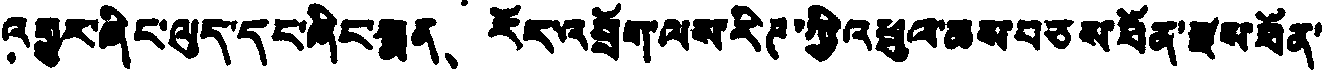འགྱུར་ཞིང་ལུད་དང་ཞིང་སྨན、 རོང་འབྲོག་ལས་རིཊ་ཀྱི་འཕྲུལ་ཆས་བཅས་ཐོན་རྫས་ཐོན་
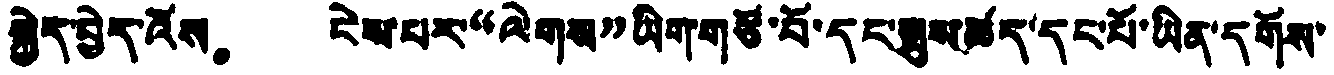སྐྱེད་བྱེད་འོས。 ངེས་པར“ལེགས”ཡིག་གཙོ་བོ་དང་སྤུས་ཚད་དང་པོ་ཡིན་དགོས་
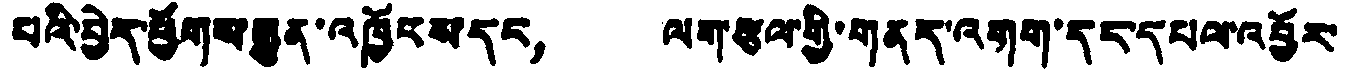པའི་བྱེད་ཕྱོགས་སྨུན་འཁྱོངས་དང， ལག་རྩལ་གྱི་གནད་འགག་དང་དཔལ་འབྱོར་
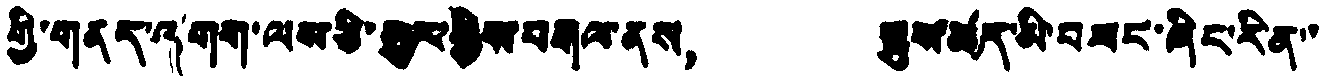གྱི་གནད་འགག་ལས་ཅྱི་མྱུར་གྱིས་བརྒལ་ནས， སྤུས་ཚད་མི་བཟང་ཞིང་རིན་་
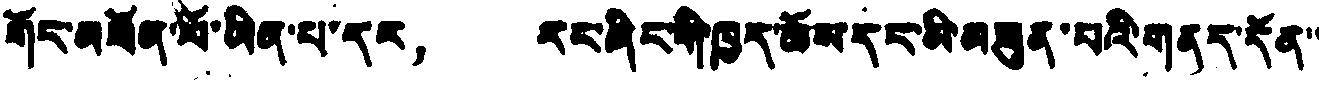གོང་མཐོན་ལོ་ཡིན་པ་དང， རང་ཞིང་གི་ཁྱད་ཆོས་དང་མི་མཐུན་པའི་གནད་དོན་་
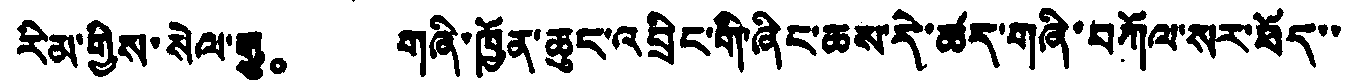རིམ་གྱིས་སེལ་རྒྱུ。 གཞི་ཁྱོན་ཆུང་འབྲིང་གི་ཞིང་ཆས་རེ་ཚད་གཞི་བཀོལ་སར་ཐོད་་
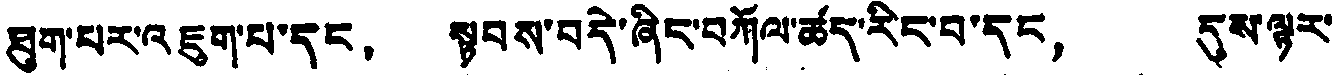ཐུག་པར་འཇུག་པ་དང， སྟབས་བདེ་ཞིང་བཀོལ་ཚད་རིང་བ་དང， དུས་ལྟར་
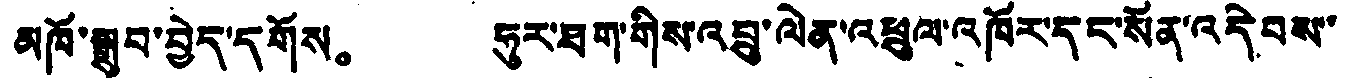མཁོ་སྒྲུབ་བྱེད་དགོས。 ཧུར་ཐག་གིས་འབྲུ་ལེན་འཕྲུལ་འཁོར་དང་སོན་འདེབས་
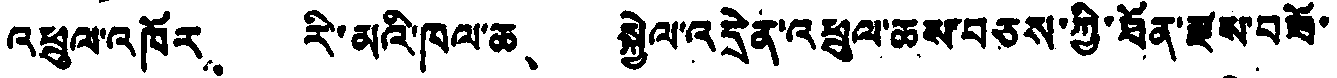འཕྲུལ་འཁོར， རི་མའི་ཁལ་ཆ、 སྐྱེལ་འདྲེན་འཕྲུལ་ཆས་བཅས་ཀྱི་ཐོན་རྫས་བཟོ་
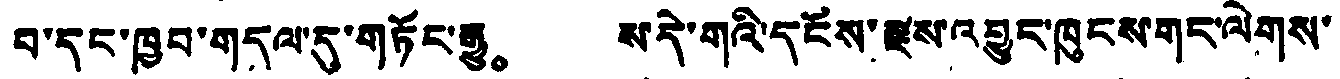བ་དང་ཁྱབ་གདལ་དུ་གཏོང་རྒྱུ。 ས་དེ་གའི་དངོས་རྫས་འབྱུང་ཁུངས་གང་ལེགས་
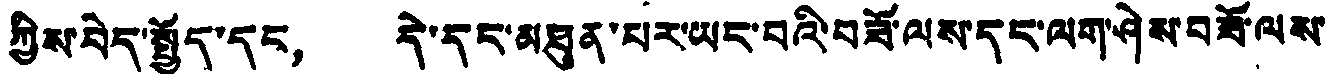ཀྱིས་བེད་སྤྱོད་དང， དེ་དང་མཐུན་པར་ཡང་བའི་བཟོ་ལས་དང་ལག་ཤེས་བཟོ་ལས་
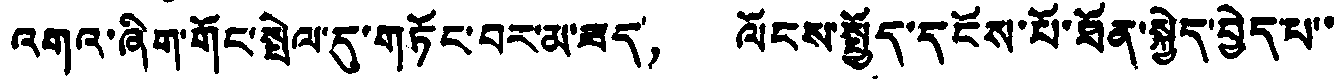འགའ་ཞིག་གོང་སྤེལ་དུ་གཏོང་བར་མ་ཟད， ལོངས་སྤྱོད་དངོས་པོ་ཐོན་སྐྱེད་བྱེད་པ་་
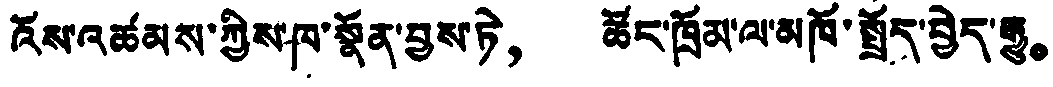འོས་འཚམས་ཀྱིས་ཁ་སྣོན་བྱས་ཏེ， ཚོང་ཁྲོམ་ལ་མཁོ་སྤྲོད་བྱེད་རྒྱུ。
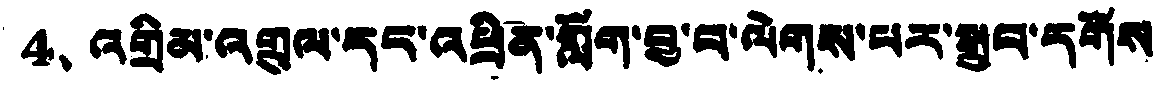4、 འགྲིམ་འགྲུལ་དང་འཕྲིན་གློག་བྱ་བ་ལེགས་པར་སྒྲུབ་དགོས
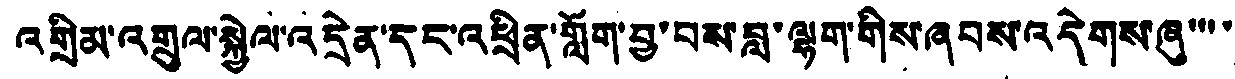འགྲིམ་འགྲུལ་སྐྱེལ་འདྲེན་དང་འཕྲིན་གློག་བྱ་བས་བླ་ལྷག་གིས་ཞབས་འདེགས་ཞུ་་་་་
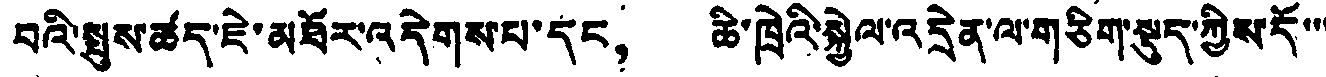བའི་སྤུས་ཚད་ཇེ་མཐོར་འདེགས་པ་དང， ཆི་ཁྲེའི་སྐྱེལ་འདྲེན་ལ་གཅིག་སྡུད་ཀྱིས་དོ་་་
